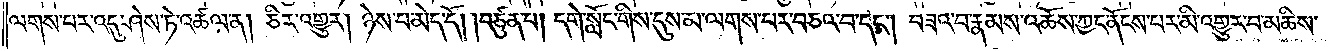ལགས་པར་འདུ་ཤེས་ཏེ་འཚལ་ན། ཅིར་འགྱུར། ཉེས་པ་མེད་དོ། །བཙུན་པ། དགེ་སློང་གིས་དུས་མ་ལགས་པར་བཅའ་བ་དང༌། བཟའ་བ་རྣམས་འཆོས་ཀྱང་ནོངས་པར་མི་འགྱུར་བ་མཆིས་
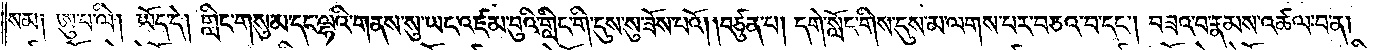སམ༑ ཨུ་པ་ལི། ཡོད་དེ། གླིང་གསུམ་དང་ལྷའི་གནས་སུ་ཡང་འཛམ་བུའི་གླིང་གི་དུས་སུ་ཟོས་པའོ། །བཙུན་པ། དགེ་སློང་གིས་དུས་མ་ལགས་པར་བཅའ་བ་དང༌། བཟའ་བ་རྣམས་འཚལ་བ་ན།
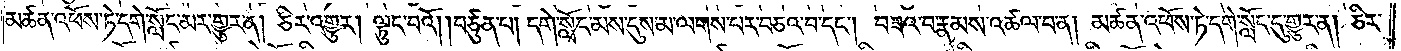མཚན་འཕོས་ཏེ་དགེ་སློང་མར་གྱུར་ན། ཅིར་འགྱུར། ལྟུང་བའོ། །བཙུན་པ། དགེ་སློང་མས་དུས་མ་ལགས་པར་བཅའ་བ་དང༌། བཟའ་བ་རྣམས་འཚལ་བ་ན། མཚན་འཕོས་ཏེ་དགེ་སློང་དུ་གྱུར་ན། ཅིར་
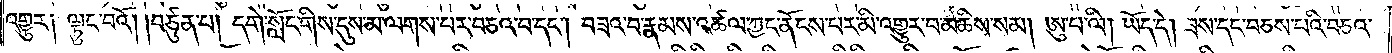འགྱུར༑ ལྟུང་བའོ། །བཙུན་པ། དགེ་སློང་གིས་དུས་མ་ལགས་པར་བཅའ་བ་དང༌། བཟའ་བ་རྣམས་འཚལ་ཀྱང་ནོངས་པར་མི་འགྱུར་བ་མཆིས་སམ། ཨུ་པ་ལི། ཡོད་དེ། ཟས་དང་བཅས་པའི་བཅའ་
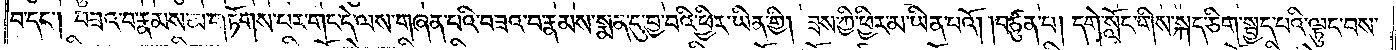བ་དང༌། བཟའ་བ་རྣམས་མ་གཏོགས་པར་གང་དེ་ལས་གཞན་པའི་བཟའ་བ་རྣམས་སྨན་དུ་བྱ་བའི་ཕྱིར་ཡིན་གྱི། ཟས་ཀྱི་ཕྱིར་མ་ཡིན་པའོ། །བཙུན་པ། དགེ་སློང་གིས་སྐད་ཅིག་སྤྱད་པའི་ལྟུང་བས་
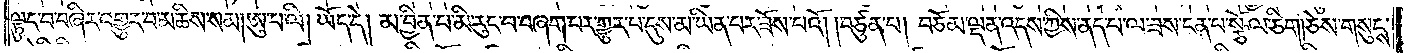ལྟུང་བ་བཞིར་འགྱུར་བ་མཆིས་སམ། ཨུ་པ་ལི། ཡོད་དེ། མ་བྱིན་པ་མི་རུང་བ་བཞག་པར་གྱུར་པ་དུས་མ་ཡིན་པར་ཟོས་པའོ། །བཙུན་པ། བཅོམ་ལྡན་འདས་ཀྱིས་ནད་པ་ལ་ཟས་ངན་པ་ལ་ཟས་ངན་པ་སྩོལ་ཅིག། ཅེས་གསུངས་
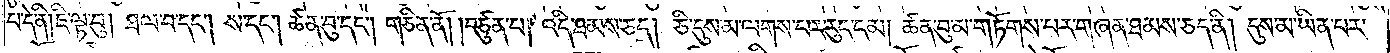པ་དེ་ནི། ཇི་ལྟ་བུ། ཐལ་བ་དང༌། ས་དང༌། ཚན་བུ་དང༌། གཅིན་ནོ། །བཙུན་པ། འདི་ཐམས་ཅད། ཅི་དུས་མ་ལགས་པར་རུང་ངམ། ཚན་བུ་མ་གཏོགས་པར་གཞན་ཐམས་ཅད་ནི། དུས་མ་ཡིན་པར་
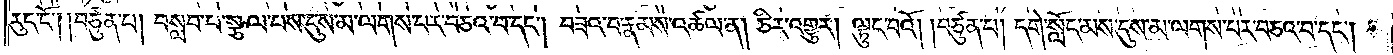རུང་ངོ༌། །བཙུན་པ། བསླབ་པ་སྩལ་པས་དུས་མ་ལགས་པར་བཅའ་བ་དང༌། བཟའ་བ་རྣམས་འཚལ་ན། ཅིར་འགྱུར། ལྟུང་བའོ། །བཙུན་པ། དགེ་སློང་མས་དུས་མ་ལགས་པར་བཅའ་བ་དང༌།
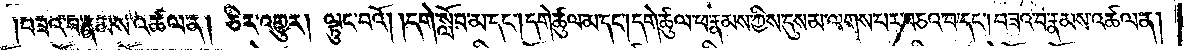།བཟའ་བ་རྣམས་འཚལ་ན། ཅིར་འགྱུར། ལྟུང་བའོ། །དགེ་སློབ་མ་དང༌། དགེ་ཚུལ་མ་དང༌། དགེ་ཚུལ་ཕ་རྣམས་ཀྱིས་དུས་མ་ལགས་པར་བཅའ་བ་དང༌། བཟའ་བ་རྣམས་འཚལ་ན།
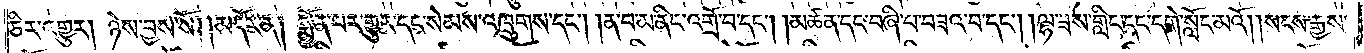ཅིར་འགྱུར། ཉེས་བྱས་སོ།    །མདོར་ན། སྨྱོན་པར་གྱུར་དང་སེམས་འཁྲུགས་དང༌། །ན་བ་མ་ནིང་འགྲོ་བ་དང༌། །མཚན་དང་བཞི་པ་བཟའ་བ་དང༌། །ལྷ་ཟས་གླིང་དང་དགེ་སློང་མའོ། །སངས་རྒྱས་
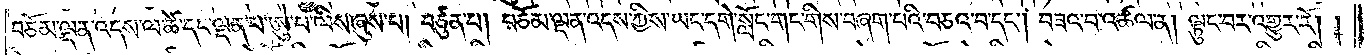བཅོམ་ལྡན་འདས་ལ་ཚེ་དང་ལྡན་པ་ཨུ་པ་ལིས་ཞུས་པ། བཙུན་པ། བཅོམ་ལྡན་འདས་ཀྱིས་ཡང་དགེ་སློང་གང་གིས་བཞག་པའི་བཅའ་བ་དང༌། བཟའ་བ་འཚལ་ན། ལྟུང་བར་འགྱུར་རོ། །
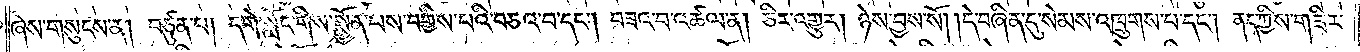ཞེས་གསུངས་ན། བཙུན་པ། དགེ་སློང་གིས་སྨྱོན་པས་བགྱིས་པའི་བཅའ་བ་དང༌། བཟའ་བ་འཚལ་ན། ཅིར་འགྱུར། ཉེས་བྱས་སོ། །དེ་བཞིན་དུ་སེམས་འཁྲུགས་པ་དང༌། ནད་ཀྱིས་གཟིར་
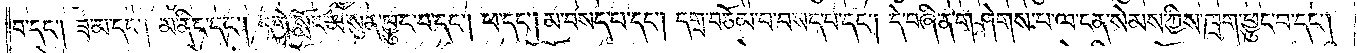བ་དང༌། ཟ་མ་དང༌། མ་ནིང་དང༌། དགེ་སློང་མ་སུན་ཕྱུང་བ་དང༌། ཕ་དང༌། མ་བསད་པ་དང༌། དགྲ་བཅོམ་པ་བསད་པ་དང༌། དེ་བཞིན་གཤེགས་པ་ལ་ངན་སེམས་ཀྱིས་ཁྲག་ཕྱུང་བ་དང༌།
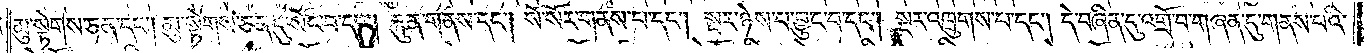མུ་སྟེགས་ཅན་དང༌། མུ་སྟེགས་ཅན་དུ་སོང་བ་དང༌། རྐུན་གནས་དང༌། སོ་སོར་གནས་པ་དང༌། སྔར་ཉེས་པ་བྱུང་བ་དང༌། སྔར་འཁྲུགས་པ་དང༌། དེ་བཞིན་དུ་འགྲོ་བ་གཞན་དུ་གནས་པའི་
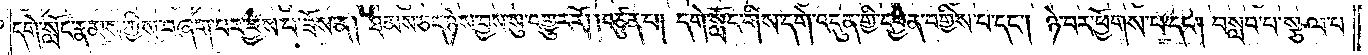དགེ་སློང་རྣམས་ཀྱིས་བཞག་པར་བྱས་པ་ཟོས་ན། ཐམས་ཅད་ཉེས་བྱས་སུ་འགྱུར་རོ། །བཙུན་པ། དགེ་སློང་གིས་དགེ་འདུན་གྱི་དབྱེན་བགྱིས་པ་དང༌། ཉེ་བར་ཕྱོགས་པ་དང༌། བསླབ་པ་སྩལ་པ་
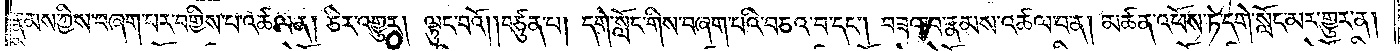རྣམས་ཀྱིས་བཞག་པར་བགྱིས་པ་འཚལ་ན། ཅིར་འགྱུར། ལྟུང་བའོ། །བཙུན་པ། དགེ་སློང་གིས་བཞག་པའི་བཅའ་བ་དང༌། བཟའ་བ་རྣམས་འཚལ་བ་ན། མཚན་འཕོས་ཏེ་དགེ་སློང་མར་གྱུར་ན།
